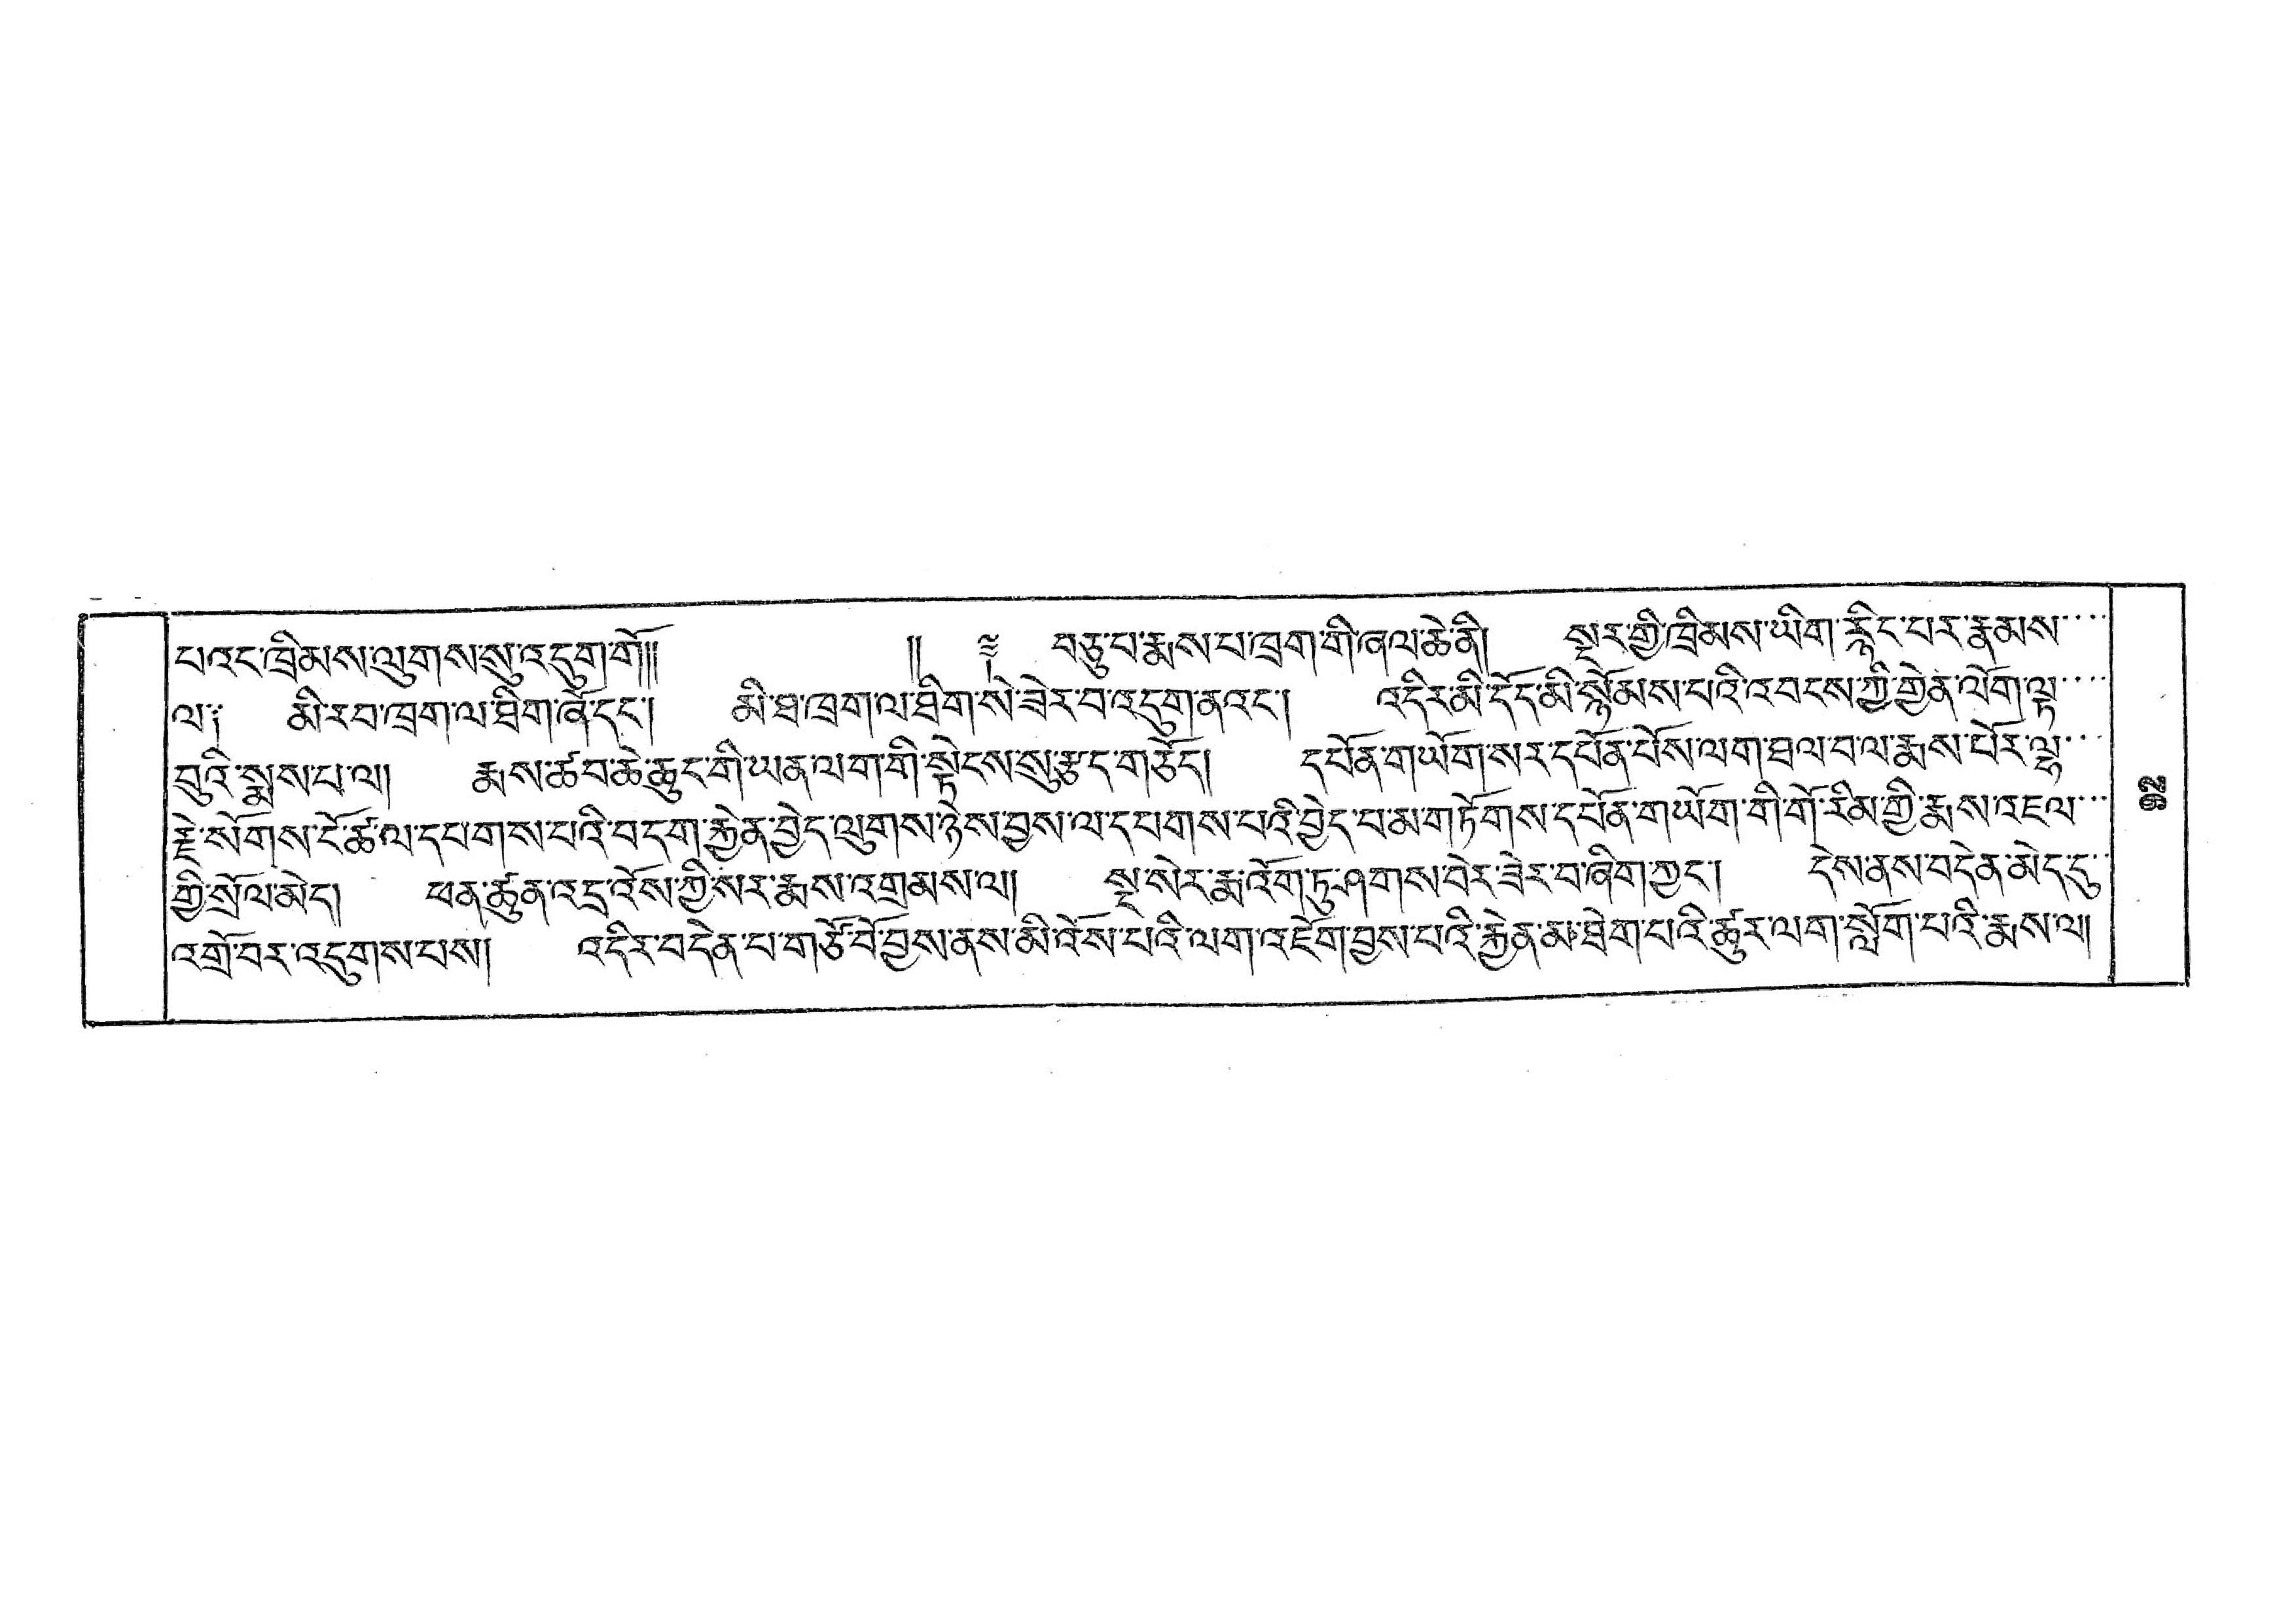པའང་ཁྲིམས་ལུགས་སུ་འདུག་གོ།།  །། ༈ བཅུ་པ་རྨས་པ་ཁྲག་གི་ཞལ་ཆེ་ནི། སྔར་གྱི་ཁྲིམས་ཡིག་རྙིང་པར་རྣམས་་་་
ལ༑ མི་རབ་ཁྲག་ལ་ཐིག་ཞོ་དང་། མི་ཐ་ཁྲག་ལ་ཐིག་སེ་ཟེར་བ་གའདུག་ནའང་། འདིར་མི་དོད་མི་སྙོམས་པའི་འབངས་ཀྱི་གྱེན་ལོག་ལྟ་་་་
བུའི་སྨས་པ་ལ། རྨས་ཚབ་ཆེ་ཆུང་གི་ཡིན་ལག་གི་སྟེངས་སུ་རྩོད་གཅོད། དཔོན་གཡོག་སར་དཔོན་པོས་ལག་ཐལ་བ་ལ་རྨས་པོར་ལྷ་་་
རྗེ་སོགས་ངོ་ཚ་ལ་དཔགས་པའི་བདག་རྐྱེན་བྱེད་ལུགས་ཉེས་བྱས་ལ་དཔགས་པའི་བྱེད་པ་མ་གཏོགས་དཔོན་གཡོག་གི་གོ་རིམ་གྱི་རྨས་འཇུལ་་་
གྱི་སྲོལ་མེད། ཕན་ཚུན་འདྲ་འོས་ཀྱི་སར་རྨས་འགྲམས་ལ། སྔ་སེར་རྨ་འོག་ཏུ་ཤགས་བེར་ཟེར་བ་ཞིག་ཀྱང་། དེས་ནས་བདེན་མེད་དུ་་
འགྲོ་བར་འདུགས་པས། འདིར་བདེན་པ་གཙོ་བོ་བྱས་ནས་མི་འོས་པའི་ལག་འཇོག་བྱས་པའི་རྐྱེན་མ་ཐེག་པའི་ཚུར་ལག་སློག་པའི་རྨས་ལ།
